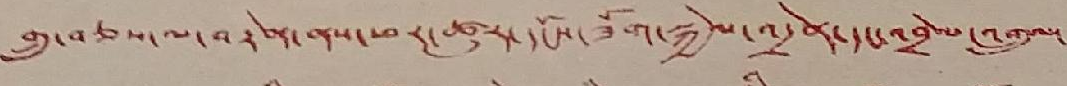གྲུ་བཅས་ལ་བརྟེན་ནས་ཕར་ཚུར་དངོས་ཟོག་སྐྱེལ་འདྲེན་དང་འབྲེལ་འགྲུལ་
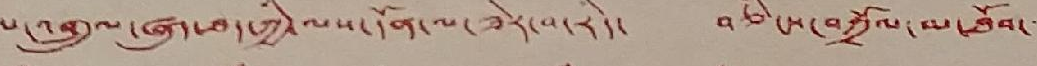པ་འགྲུལ་ཞུད་ཐད་ཀྱི་ལས་དོན་ལ་ཟེར་བ་རེད་ བཅིངས་བཀྲོལ་མ་ཐོབ་་་
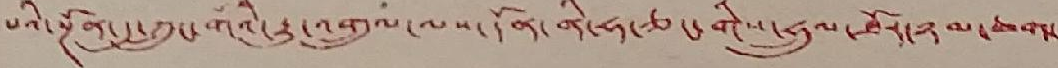པའི་སྔོན་དུ་ཀྲུང་གོའི་རྒྱུ་འགྲུལ་ལས་དོན་ནི་ཧ་ཅང་གིས་ཧྲུལ་ཐོར་ཉམ་ཆག་
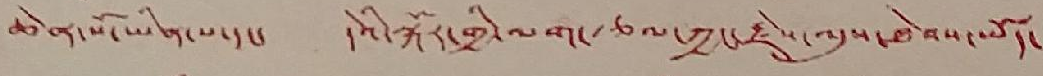ཆེན་པོ་ཡིན་པ་དང་ དེའི་སྐོར་གྱི་ལག་རྩལ་ཀྱང་རྗེས་ལུས་ཐེབས་ཡོད་
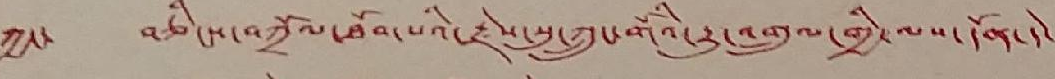ཀྱང་ བཅིངས་བཀྲོལ་ཐོབ་པའི་རྗེས་སུ་ཀྲུང་གོའི་རྒྱུ་འགྲུལ་གྱི་ལས་དོན་དེ་
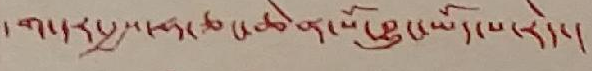དག་དར་རྒྱས་ཧ་ཅང་ཆེན་པོ་བྱུང་ཡོད་པ་རེད་།
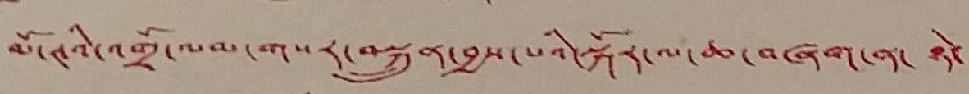མོ་ཊའི་འགྲོ་ལམ་གསར་བསྐྲུན་བྱས་པའི་སྐོར་ལ་ཆ་བཞག་ན་ ཉེ་
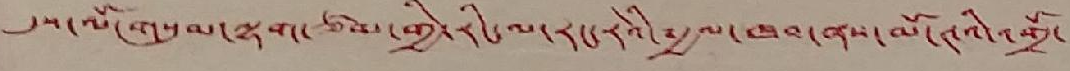དུས་ལོ་གསུམ་ལྷག་ཙམ་གྱི་རིང་ལ་རང་རེའི་༸རྒྱལ་ཁབ་ནས་མོ་ཊའི་འགྲོ་
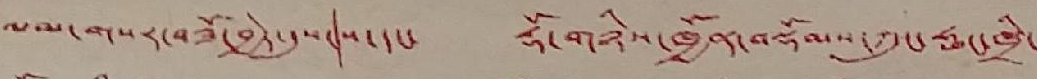ལམ་གསར་བཟོ་བྱེད་དུས་ས་དང་ རྡོ་གཉིས་ཁྱོན་བསྡོམས་དཀུང་ཧྥང་ཁྲི་
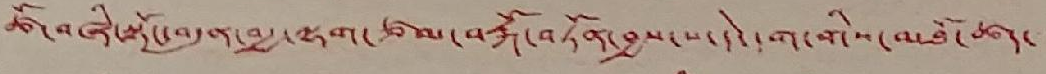ཚོ་བཞི་སྟོང་བདུན་བརྒྱ་ལྷག་ཙམ་བརྐོ་བཏོན་བྱས་པ་དེ་དག་གིས་མཐོ་ཚད་
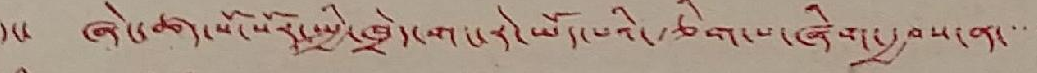དང་ ཞེང་ཚད་སོ་སོར་སྤྱི་ཁྲེད་གང་རེ་ཡོད་པའི་རྩིག་པ་ཞིག་རྒྱབས་ན་་་་
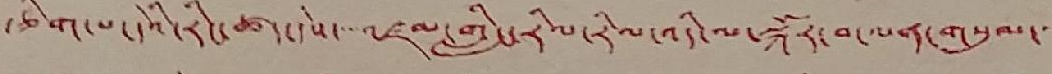རྩིག་པ་དེའི་རིང་ཚད་དེས་་་འཛམ་གླིང་རིལ་རིལ་འདི་ལ་སྐོར་བ་ལན་གསུམ་་་
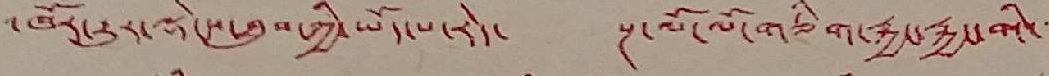འཁོར་རྒྱུར་ལྡེངས་ཐུབ་ཀྱི་ཡོད་པ་རེད་ སྔ་ལོ་ལོ་གཅིག་རྐྱང་རྐྱང་གི་
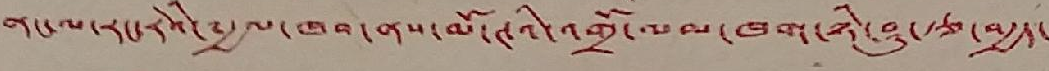ནང་ལ་རང་རེའི་༸རྒྱལ་ཁབ་ནས་མོ་ཊའི་འགྲོ་ལམ་ཁག་ཉི་ཤུ་རྩ་བརྒྱད་
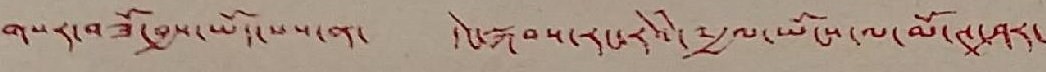གསར་བཟོ་བྱས་ཡོད་པས་ན་ དེང་སྐབས་རང་རེའི་༸རྒྱལ་ཡོངས་ལ་མོ་ཊ་ཤར་
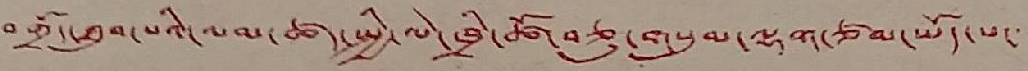བགྲོད་ཐུབ་པའི་ལམ་ཚད་སྤྱི་ལེ་ཁྲི་ཚོ་བཅུ་གསུམ་ལྷག་ཙམ་ཡོད་པ་་་
